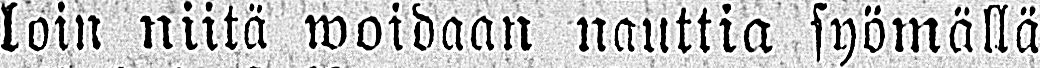loin niitä woidaan nauttia syömällä
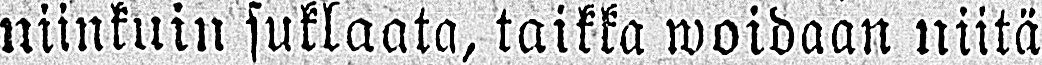niinkuin suklaata, taikka woidaan niitä
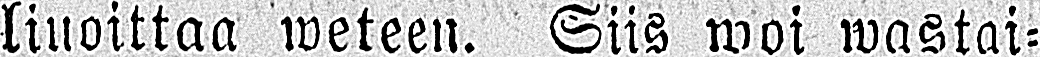liuoittaa weteen. Siis woi wastai-
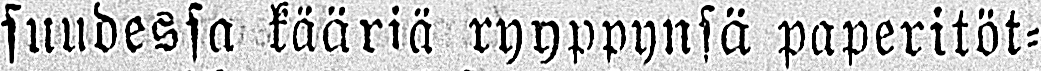suudessa kääriä ryyppynsä paperitöt-
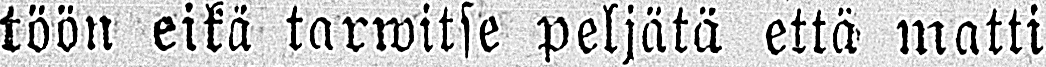töön eikä tarwitse peljätä että matti
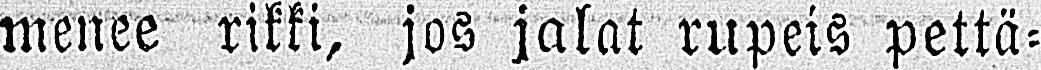menee rikki, jos jalat rupeis pettä-
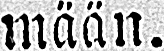mään.
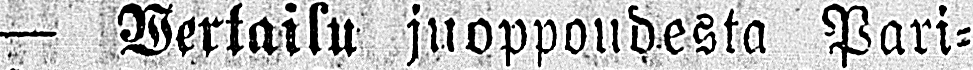— Vertailu juoppoudesta Pari-
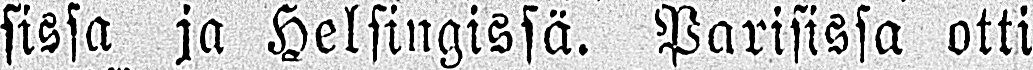sissa ja Helsingissä. Parisissa otti
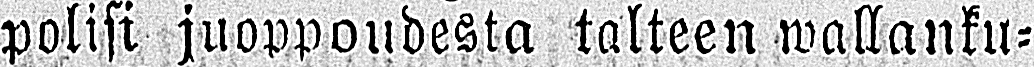polisi juoppoudesta talteen wallanku-
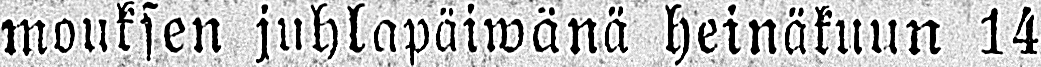mouksen juhlapäiwänä heinäkuun 14
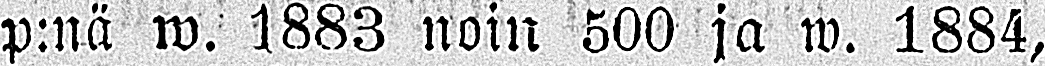p:nä w. 1883 noin 500 ja w. 1884,
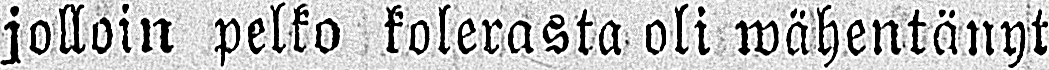jolloin pelko kolerasta oli wähentänyt
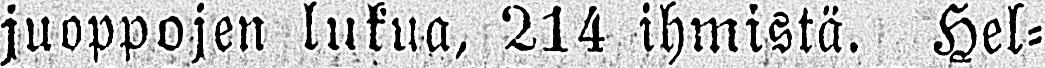juoppojen lukua, 214 ihmistä. Hel-
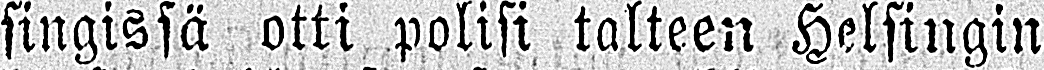singissä otti polisi talteen Helsingin
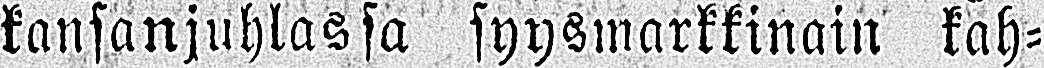kansanjuhlassa syysmarkkinain kah-
